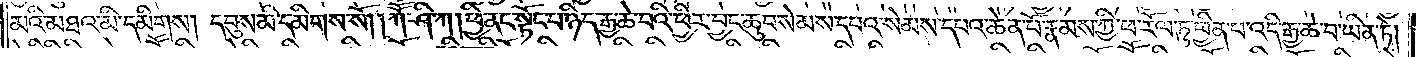མའི་མཐའ་མི་དམིགས། དབུས་མི་དམིགས་སོ། །ཀཽ་ཤི་ཀ། ཕྱི་ནང་སྟོང་པ་ཉིད་རྒྱ་ཆེ་བའི་ཕྱིར་བྱང་ཆུབ་སེམས་དཔའ་སེམས་དཔའ་ཆེན་པོ་རྣམས་ཀྱི་ཕ་རོལ་ཏུ་ཕྱིན་པ་འདི་རྒྱ་ཆེ་བ་ཡིན་ཏེ།
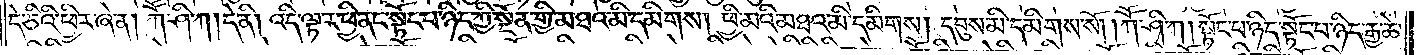དེ་ཅིའི་ཕྱིར་ཞེ་ན། ཀཽ་ཤི་ཀ །དེ་ནི། འདི་ལྟར་ཕྱི་ནང་སྟོང་བ་ཉིད་ཀྱི་སྔོན་གྱི་མཐའ་མི་དམིགས། ཕྱི་མའི་མཐའ་མི་དམིགས། དབུས་མི་དམིགས་སོ། །ཀཽ་ཤི་ཀ །སྟོང་པ་ཉིད་སྟོང་པ་ཉིད་རྒྱ་ཆེ་
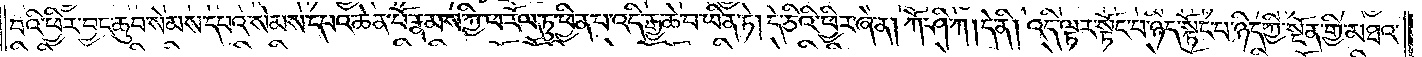བའི་ཕྱིར་བྱང་ཆུབ་སེམས་དཔའ་སེམས་དཔའ་ཆེན་པོ་རྣམས་ཀྱི་ཕ་རོལ་ཏུ་ཕྱིན་པ་འདི་རྒྱ་ཆེ་བ་ཡིན་ཏེ། དེ་ཅིའི་ཕྱིར་ཞེ་ན། ཀཽ་ཤི་ཀ །དེ་ནི། འདི་ལྟར་སྟོང་པ་ཉིད་སྟོང་པ་ཉིད་ཀྱི་སྔོན་གྱི་མཐའ་
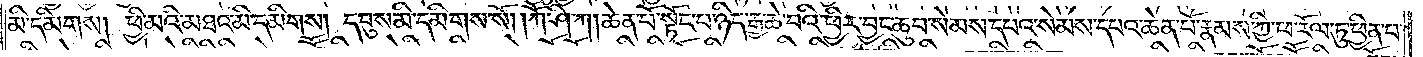མི་དམིགས། ཕྱི་མའི་མཐའ་མི་དམིགས། དབུས་མི་དམིགས་སོ། །ཀཽ་ཤི་ཀ། ཆེན་པོ་སྟོང་པ་ཉིད་རྒྱ་ཆེ་བའི་ཕྱིར། བྱང་ཆུབ་སེམས་དཔའ་སེམས་དཔའ་ཆེན་པོ་རྣམས་ཀྱི་ཕ་རོལ་ཏུ་ཕྱིན་པ་
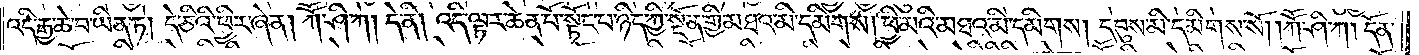འདི་རྒྱ་ཆེ་བ་ཡིན་ཏེ། དེ་ཅིའི་ཕྱིར་ཞེ་ན། ཀཽ་ཤི་ཀ། དེ་ནི། འདི་ལྟར་ཆེན་པོ་སྟོང་པ་ཉིད་ཀྱི་སྔོན་གྱི་མཐའ་མི་དམིགས། ཕྱི་མའི་མཐའ་མི་དམིགས། དབུས་མི་དམིགས་སོ། །ཀཽ་ཤི་ཀ། དོན་
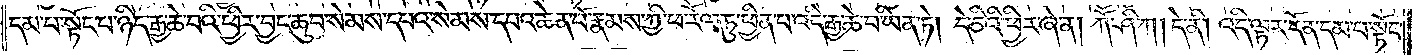དམ་པ་སྟོང་པ་ཉིད་རྒྱ་ཆེ་བའི་ཕྱིར་བྱང་ཆུབ་སེམས་དཔའ་སེམས་དཔའ་ཆེན་པོ་རྣམས་ཀྱི་ཕ་རོལ་ཏུ་ཕྱིན་པ་འདི་རྒྱ་ཆེ་བ་ཡིན་ཏེ། དེ་ཅིའི་ཕྱིར་ཞེ་ན། ཀཽ་ཤི་ཀ། དེ་ནི། འདི་ལྟར་དོན་དམ་པ་སྟོང་
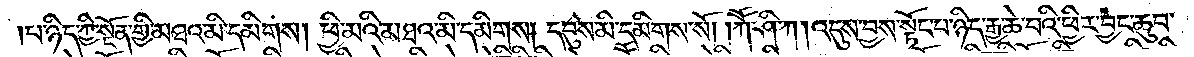པ་ཉིད་ཀྱི་སྔོན་གྱི་མཐའ་མི་དམིགས། ཕྱི་མའི་མཐའ་མི་དམིགས། དབུས་མི་དམིགས་སོ། །ཀཽ་ཤི་ཀ། འདུས་བྱས་སྟོང་པ་ཉིད་རྒྱ་ཆེ་བའི་ཕྱིར་བྱང་ཆུབ་
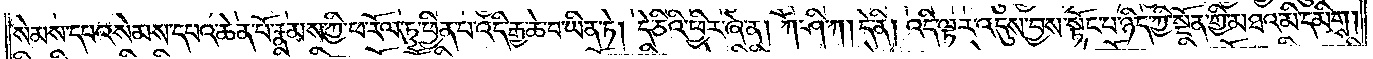སེམས་དཔའ་སེམས་དཔའ་ཆེན་པོ་རྣམས་ཀྱི་ཕ་རོལ་ཏུ་ཕྱིན་པ་འདི་རྒྱ་ཆེ་བ་ཡིན་ཏེ། དེ་ཅིའི་ཕྱིར་ཞེ་ན། །ཀཽ་ཤི་ཀ། དེ་ནི། འདི་ལྟར་འདུས་བྱས་སྟོང་པ་ཉིད་ཀྱི་སྔོན་གྱི་མཐའ་མི་དམིགས།
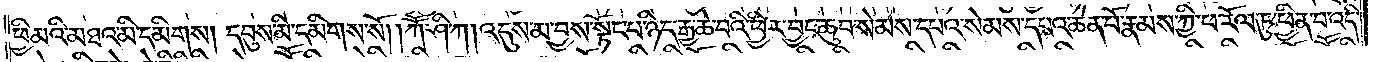ཕྱི་མའི་མཐའ་མི་དམིགས། དབུས་མི་དམིགས་སོ། །ཀཽ་ཤི་ཀ། འདུས་མ་བྱས་སྟོང་པ་ཉིད་རྒྱ་ཆེ་བའི་ཕྱིར་བྱང་ཆུབ་སེམས་དཔའ་སེམས་དཔའ་ཆེན་པོ་རྣམས་ཀྱི་ཕ་རོལ་ཏུ་ཕྱིན་པ་འདི་
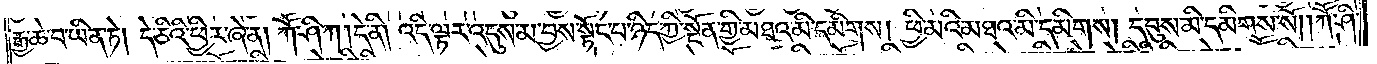རྒྱ་ཆེ་བ་ཡིན་ཏེ། དེ་ཅིའི་ཕྱིར་ཞེ་ན། ཀཽ་ཤི་ཀ །དེ་ནི། འདི་ལྟར་འདུས་མ་བྱས་སྟོང་པ་ཉིད་ཀྱི་སྔོན་གྱི་མཐའ་མི་དམིགས། ཕྱི་མའི་མཐའ་མི་དམིགས། དབུས་མི་དམིགས་སོ། །ཀཽ་ཤི་
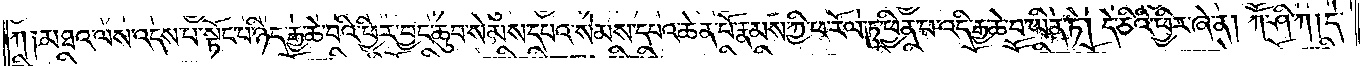ཀ། མཐའ་ལས་འདས་པ་སྟོང་པ་ཉིད་རྒྱ་ཆེ་བའི་ཕྱིར་བྱང་ཆུབ་སེམས་དཔའ་སེམས་དཔའ་ཆེན་པོ་རྣམས་ཀྱི་ཕ་རོལ་ཏུ་ཕྱིན་པ་འདི་རྒྱ་ཆེ་བ་ཡིན་ཏེ། དེ་ཅིའི་ཕྱིར་ཞེ་ན། ཀཽ་ཤི་ཀ །དེ་
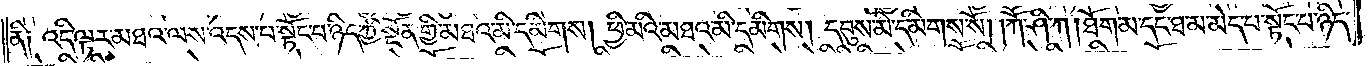ནི༑ འདི་ལྟར་མཐའ་ལས་འདས་པ་སྟོང་པ་ཉིད་ཀྱི་སྔོན་གྱི་མཐའ་མི་དམིགས། ཕྱི་མའི་མཐའ་མི་དམིགས། དབུས་མི་དམིགས་སོ། །ཀཽ་ཤི་ཀ །ཐོག་མ་དང་ཐ་མ་མེད་པ་སྟོང་པ་ཉིད་
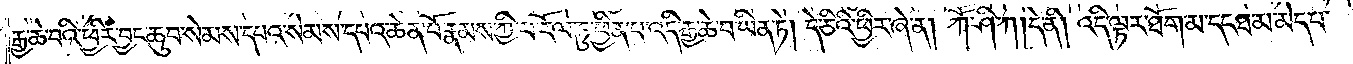རྒྱ་ཆེ་བའི་ཕྱིར་བྱང་ཆུབ་སེམས་དཔའ་སེམས་དཔའ་ཆེན་པོ་རྣམས་ཀྱི་ཕ་རོལ་ཏུ་ཕྱིན་པ་འདི་རྒྱ་ཆེ་བ་ཡིན་ཏེ། དེ་ཅིའི་ཕྱིར་ཞེ་ན། ཀཽ་ཤི་ཀ །དེ་ནི། འདི་ལྟར་ཐོག་མ་དང་ཐ་མ་མེད་པ་
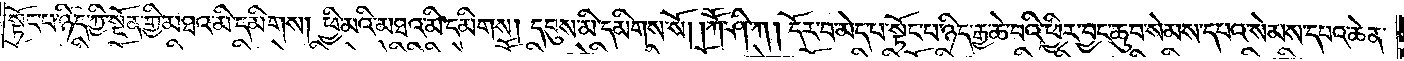སྟོང་པ་ཉིད་ཀྱི་སྔོན་གྱི་མཐའ་མི་དམིགས། ཕྱི་མའི་མཐའ་མི་དམིགས། དབུས་མི་དམིགས་སོ། །ཀཽ་ཤི་ཀ། དོར་བ་མེད་པ་སྟོང་པ་ཉིད་རྒྱ་ཆེ་བའི་ཕྱིར། བྱང་ཆུབ་སེམས་དཔའ་སེམས་དཔའ་ཆེན་
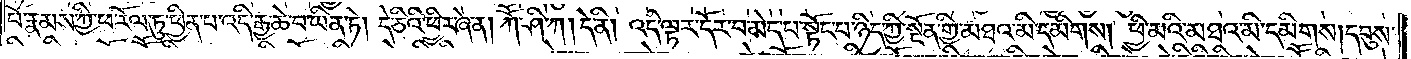པོ་རྣམས་ཀྱི་ཕ་རོལ་ཏུ་ཕྱིན་པ་འདི་རྒྱ་ཆེ་བ་ཡིན་ཏེ། དེ་ཅིའི་ཕྱིར་ཞེ་ན། ཀཽ་ཤི་ཀ། དེ་ནི། འདི་ལྟར་དོར་བ་མེད་པ་སྟོང་པ་ཉིད་ཀྱི་སྔོན་གྱི་མཐའ་མི་དམིགས། ཕྱི་མའི་མཐའ་མི་དམིགས། དབུས་
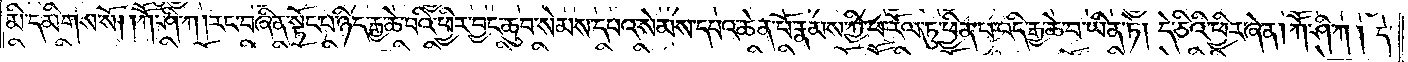མི་དམིགས་སོ། །ཀཽ་ཤི་ཀ །རང་བཞིན་སྟོང་པ་ཉིད་རྒྱ་ཆེ་བའི་ཕྱིར་བྱང་ཆུབ་སེམས་དཔའ་སེམས་དཔའ་ཆེན་པོ་རྣམས་ཀྱི་ཕ་རོལ་ཏུ་ཕྱིན་པ་འདི་རྒྱ་ཆེ་བ་ཡིན་ཏེ། དེ་ཅིའི་ཕྱིར་ཞེ་ན། ཀཽ་ཤི་ཀ། དེ་
